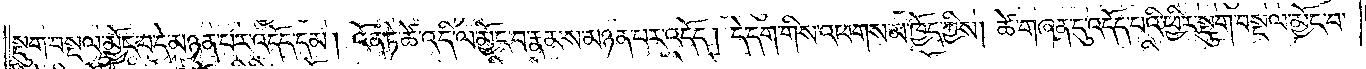སྡུག་བསྔལ་མྱོང་བ་དེ་མཉན་པར་འདོད་དམ། འོན་ཏེ་ཚེ་འདི་ལ་མྱོང་བ་རྣམས་མཉན་པར་འདོད། དེ་དག་གིས་འཕགས་མ་ཁྱོད་ཀྱིས། ཚེ་གཞན་དུ་འདོད་པའི་ཕྱིར་སྡུག་བསྔལ་མྱོང་བ་
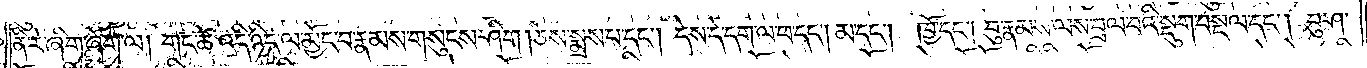ནི་རེ་ཞིག་ཞོག་ལ། གང་ཚེ་འདི་ཉིད་ལ་མྱོང་བ་རྣམས་གསུངས་ཤིག །ཅེས་སྨྲས་པ་དང༌། དེས་དེ་དག་ལ་ཕ་དང༌། མ་དང༌། ཁྱོ་དང༌། བུ་རྣམས་ལས་བྲལ་བའི་སྡུག་བསྔལ་དང༌། བུ་ཤ་
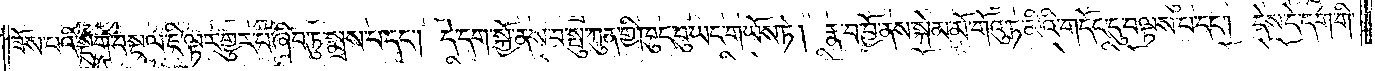ཟོས་པའི་སྡུག་བསྔལ་ཇི་ལྟར་གྱུར་པ་ཞིབ་ཏུ་སྨྲས་པ་དང༌། དེ་དག་སྐྱོ་ནས་པ་སྤུ་ཀུན་གྱི་ཁུང་བུ་ཡང་གཡོས་ཏེ། རྣ་བ་བྱོ་ནས་སྐེམ་མོ་གོའུ་ཏ་མིའི་གདོང་དུ་བལྟས་པ་དང༌། དེས་དེ་དག་གི་
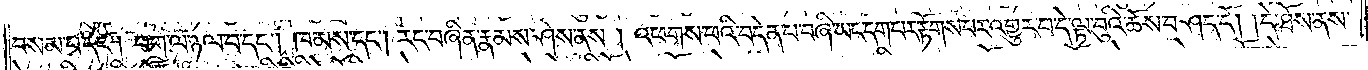བསམ་པ་དང༌། བག་ལ་ཉལ་བ་དང༌། ཁམས་དང༌། རང་བཞིན་རྣམས་ཤེས་ནས། འཕགས་པའི་བདེན་པ་བཞི་ཡང་དག་པར་རྟོགས་པར་འགྱུར་བ་དེ་ལྟ་བུའི་ཆོས་བཤད་དོ། །དེ་ཐོས་ནས་
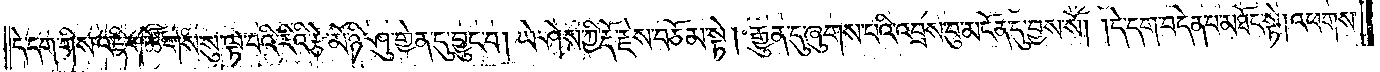དེ་དག་གིས་འཇིག་ཚོགས་སུ་ལྟ་བའི་རིའི་རྩེ་མོ་ཉི་ཤུ་གྱེན་དུ་བྱུང་བ། ཡེ་ཤེས་ཀྱི་རྡོ་རྗེས་བཅོམ་སྟེ། རྒྱུན་དུ་ཞུགས་པའི་འབྲས་བུ་མངོན་དུ་བྱས་སོ། །དེ་དག་བདེན་པ་མཐོང་སྟེ། འཕགས་
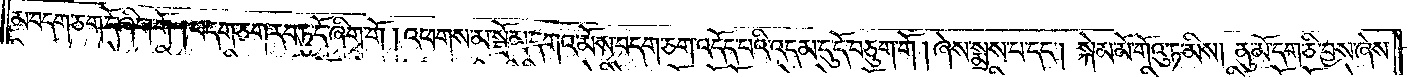མ་བདག་ཅག་དོ་ཞིག་གོ །བདག་ཅག་རབ་ཏུ་དོ་ཞིག་གོ །འཕགས་མ་སྤོམ་དགའ་མེས་བདག་ཅག་འདོད་པའི་འདམ་དུ་དོ་བཅུག་གོ །ཞེས་སྨྲས་པ་དང༌། སྐེམ་མོ་གོའུ་ཏ་མིས། ནུ་མོ་དག་ཅི་བྱས་ཞེས་
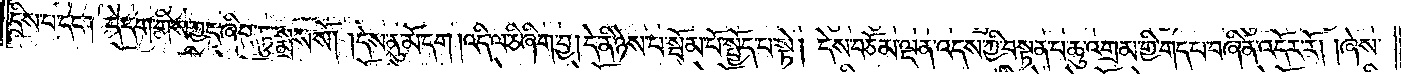དྲིས་པ་དང༌། དེ་དག་གིས་ཀྱང་ཞིབ་ཏུ་སྨྲས་སོ། །དེས་ནུ་མོ་དག །འདི་ལ་ཅི་ཞིག་བྱ། དེ་ནི་ཉེས་པ་སྦོམ་པོ་སྤྱོད་པ་སྟེ། དེས་བཅོམ་ལྡན་འདས་ཀྱི་བསྟན་པ་ཆུ་འགྲམ་གྱི་གད་པ་བཞིན་འདོར་རོ། །ཞེས་
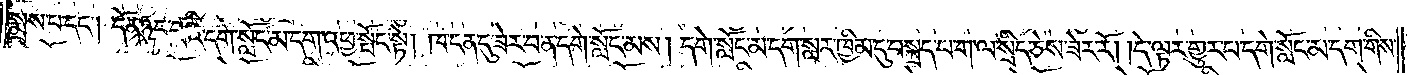སྨྲས་པ་དང༌། དོན་ཉུང་བའི་དགེ་སློང་མ་དག་འཕྱ་སྤོང་སྟེ། ཁ་ངན་དུ་ཟེར་བ་ན་དགེ་སློང་མས། དགེ་སློང་མ་དག་སླར་ཁྱིམ་དུ་བསྐྲད་པ་ག་ལ་སྲིད་ཅེས་ཟེར་རོ། །དེ་ལྟར་གྱུར་པ་དགེ་སློང་མ་དག་གིས་
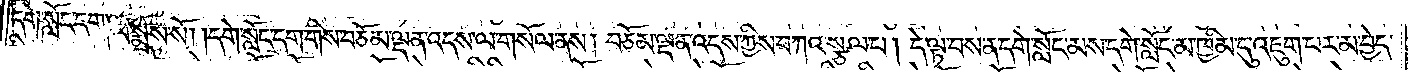དགེ་སློང་དག་ལ་སྨྲས་སོ། །དགེ་སློང་དག་གིས་བཅོམ་ལྡན་འདས་ལ་གསོལ་ནས། བཅོམ་ལྡན་འདས་ཀྱིས་བཀའ་སྩལ་པ། དེ་ལྟ་བས་ན་དགེ་སློང་མས་དགེ་སློང་མ་ཁྱིམ་དུ་འཇུག་པར་མ་བྱེད་
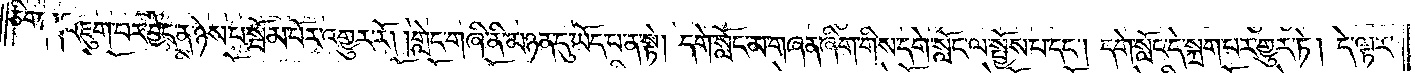ཅིག །འཇུག་པར་བྱེད་ན་ཉེས་པ་སྦོམ་པོར་འགྱུར་རོ། །གླེང་གཞི་ནི་མཉན་དུ་ཡོད་པ་ན་སྟེ། དགེ་སློང་མ་གཞན་ཞིག་གིས་དགེ་སློང་ལ་སྤྱོད་པ་དང༌། དགེ་སློང་དེ་སྐྲག་པར་གྱུར་ཏེ། དེ་ལྟར་
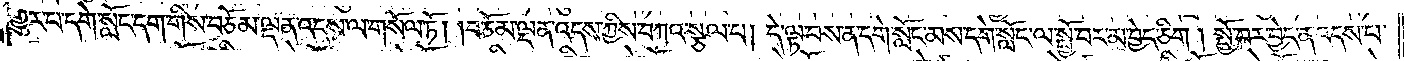གྱུར་པ་དགེ་སློང་དག་གིས་བཅོམ་ལྡན་འདས་ལ་གསོལ་ཏོ། །བཅོམ་ལྡན་འདས་ཀྱིས་བཀའ་སྩལ་པ། དེ་ལྟ་བས་ན་དགེ་སློང་མས་དགེ་སློང་ལ་སྤྱོ་བར་མ་བྱེད་ཅིག །སྤྱོ་བར་བྱེད་ན་འདས་པ་
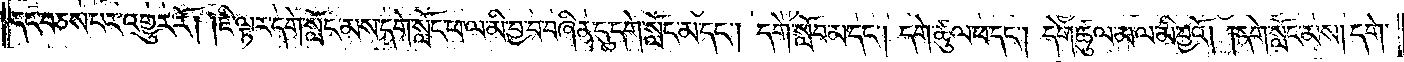དང་བཅས་པར་འགྱུར་རོ། །ཇི་ལྟར་དགེ་སློང་མས་དགེ་སློང་ཕ་ལ་མི་བྱ་བ་བཞིན་དུ་དགེ་སློང་མ་དང༌། དགེ་སློང་མ་དང༌། དགེ་ཚུལ་ཕ་དང༌། དགེ་ཚུལ་མ་ལ་མི་བྱའོ། །དགེ་སློང་མས། དགེ་
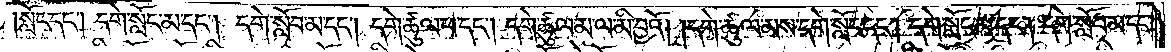སློང་དང༌། དགེ་སློང་མ་དང༌། དགེ་སློབ་མ་དང༌། དགེ་ཚུལ་ཕ་དང༌། དགེ་ཚུལ་མ་ལ་མི་བྱའོ། །དགེ་ཚུལ་མས་དགེ་སློང་དང༌། དགེ་སློང་མ་དང༌། དགེ་སློང་མ་དང་
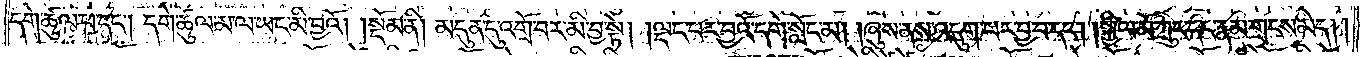དགེ་ཚུལ་ཕ་དང༌། དགེ་ཚུལ་མ་ལ་ཡང་མི་བྱའོ།    །སྡོམ་ནི། མདུན་དུ་འགྲོ་བར་མི་བྱ་སྟེ། །ལྡང་པར་བྱའོ་དགེ་སློང་མ། ཞུས་ནས་འདུག་པར་བྱ་བ་དང༌། །སྐྱིལ་མོ་ཀྲུང་དང་རྣམ་གྲངས་མེད། །
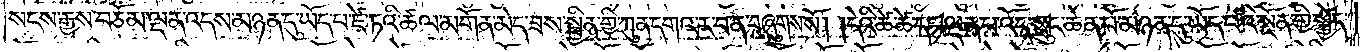སངས་རྒྱས་བཅོམ་ལྡན་འདས་མཉན་དུ་ཡོད་པ་ཛེ་ཏའི་ཚལ་མགོན་མེད་ཟས་སྦྱིན་གྱི་ཀུན་དགའ་ར་བ་ན་བཞུགས་སོ། །དེའི་ཚེ་ཚེ་དང་ལྡན་པ་འོད་སྲུང་ཆེན་པོ་མཉན་དུ་ཡོད་པའི་སྔོན་གྱི་སྐྱེད་
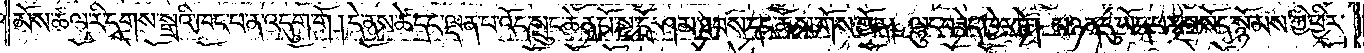མོས་ཚལ་རི་དྭགས་སྒྲའི་ཁང་པ་ན་འདུག་གོ །དེ་ནས་ཚེ་དང་ལྡན་པ་འོད་སྲུང་ཆེན་པོ་སྔ་དྲོ་ཤམ་ཐབས་དང་ཆོས་གོས་གྱོན། ལྷུང་བཟེད་ཁྱེར་ཏེ། མཉན་དུ་ཡོད་པར་བསོད་སྙོམས་ཀྱི་ཕྱིར་
